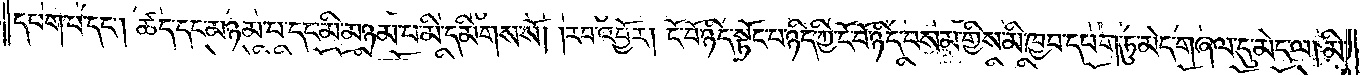དཔག་པ་དང༌། ཚད་དང་མཉམ་པ་དང་མི་མཉམ་པ་མི་དམིགས་སོ། །རབ་འབྱོར། ངོ་བོ་ཉིད་སྟོང་པ་ཉིད་ཀྱི་ངོ་བོ་ཉིད་བསམ་གྱིས་མི་ཁྱབ་དཔག་ཏུ་མེད་གཞལ་དུ་མེད་ལ། མི་
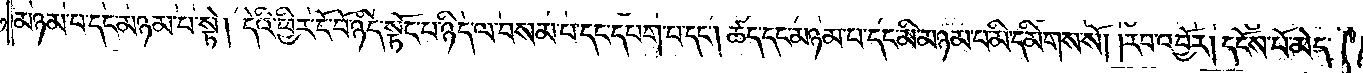མཉམ་པ་དང་མཉམ་པ་སྟེ། དེའི་ཕྱིར་ངོ་བོ་ཉིད་སྟོང་པ་ཉིད་ལ་བསམ་པ་དང་དཔག་པ་དང༌། ཚད་དང་མཉམ་པ་དང་མི་མཉམ་པ་མི་དམིགས་སོ། །རབ་འབྱོར། དངོས་པོ་མེད་
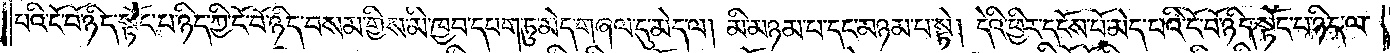པའི་ངོ་བོ་ཉིད་སྟོང་པ་ཉིད་ཀྱི་ངོ་བོ་ཉིད་བསམ་གྱིས་མི་ཁྱབ་དཔག་ཏུ་མེད་གཞལ་དུ་མེད་ལ། མི་མཉམ་པ་དང་མཉམ་པ་སྟེ། དེའི་ཕྱིར་དངོས་པོ་མེད་པའི་ངོ་བོ་ཉིད་སྟོང་པ་ཉིད་ལ་
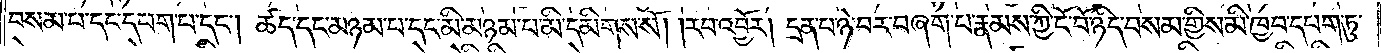བསམ་པ་དང་དཔག་པ་དང༌། ཚད་དང་མཉམ་པ་དང་མི་མཉམ་པ་མི་དམིགས་སོ། །རབ་འབྱོར། དྲན་པ་ཉེ་བར་བཞག་པ་རྣམས་ཀྱི་ངོ་བོ་ཉིད་བསམ་གྱིས་མི་ཁྱབ་དཔག་ཏུ་
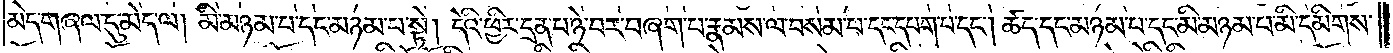མེད་གཞལ་དུ་མེད་ལ། མི་མཉམ་པ་དང་མཉམ་པ་སྟེ། དེའི་ཕྱིར་དྲན་པ་ཉེ་བར་བཞག་པ་རྣམས་ལ་བསམ་པ་དང་དཔག་པ་དང༌། ཚད་དང་མཉམ་པ་དང་མི་མཉམ་པ་མི་དམིགས་
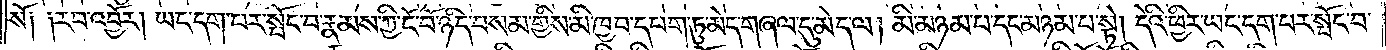སོ། །རབ་འབྱོར། ཡང་དག་པར་སྤོང་བ་རྣམས་ཀྱི་ངོ་བོ་ཉིད་བསམ་གྱིས་མི་ཁྱབ་དཔག་ཏུ་མེད་གཞལ་དུ་མེད་ལ། མི་མཉམ་པ་དང་མཉམ་པ་སྟེ། དེའི་ཕྱིར་ཡང་དག་པར་སྤོང་བ་
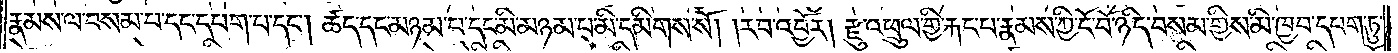རྣམས་ལ་བསམ་པ་དང་དཔག་པ་དང༌། ཚད་དང་མཉམ་པ་དང་མི་མཉམ་པ་མི་དམིགས་སོ། །རབ་འབྱོར། རྫུ་འཕྲུལ་གྱི་རྐང་པ་རྣམས་ཀྱི་ངོ་བོ་ཉིད་བསམ་གྱིས་མི་ཁྱབ་དཔག་ཏུ་
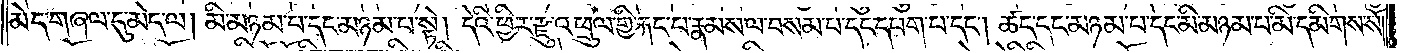མེད་གཞལ་དུ་མེད་ལ། མི་མཉམ་པ་དང་མཉམ་པ་སྟེ། དེའི་ཕྱིར་རྫུ་འཕྲུལ་གྱི་རྐང་པ་རྣམས་ལ་བསམ་པ་དང་དཔག་པ་དང༌། ཚད་དང་མཉམ་པ་དང་མི་མཉམ་པ་མི་དམིགས་སོ། །
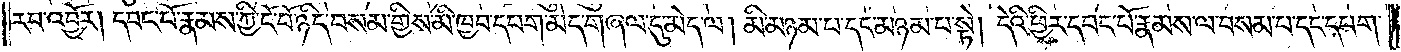རབ་འབྱོར། དབང་པོ་རྣམས་ཀྱི་ངོ་བོ་ཉིད་བསམ་གྱིས་མི་ཁྱབ་དཔག་ཏུ་མེད་གཞལ་དུ་མེད་ལ། མི་མཉམ་པ་དང་མཉམ་པ་སྟེ། དེའི་ཕྱིར་དབང་པོ་རྣམས་ལ་བསམ་པ་དང་དཔག་
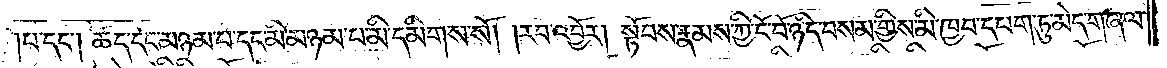པ་དང༌། ཚད་དང་མཉམ་པ་དང་མི་མཉམ་པ་མི་དམིགས་སོ། །རབ་འབྱོར། སྟོབས་རྣམས་ཀྱི་ངོ་བོ་ཉིད་བསམ་གྱིས་མི་ཁྱབ་དཔག་ཏུ་མེད་གཞལ་
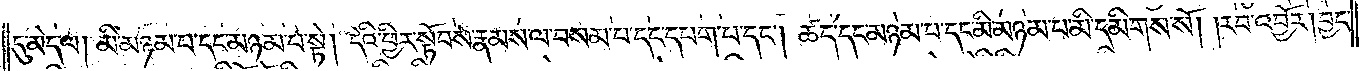དུ་མེད་ལ། མི་མཉམ་པ་དང་མཉམ་པ་སྟེ། དེའི་ཕྱིར་སྟོབས་རྣམས་ལ་བསམ་པ་དང་དཔག་པ་དང༌། ཚད་དང་མཉམ་པ་དང་མི་མཉམ་པ་མི་དམིགས་སོ། །རབ་འབྱོར། བྱང་
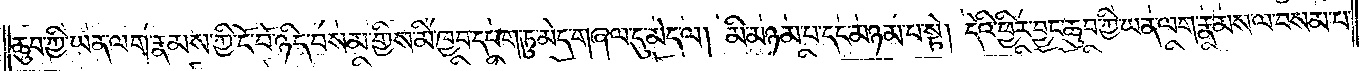ཆུབ་ཀྱི་ཡན་ལག་རྣམས་ཀྱི་ངོ་བོ་ཉིད་བསམ་གྱིས་མི་ཁྱབ་དཔག་ཏུ་མེད་གཞལ་དུ་མེད་ལ། མི་མཉམ་པ་དང་མཉམ་པ་སྟེ། དེའི་ཕྱིར་བྱང་ཆུབ་ཀྱི་ཡན་ལག་རྣམས་ལ་བསམ་པ་
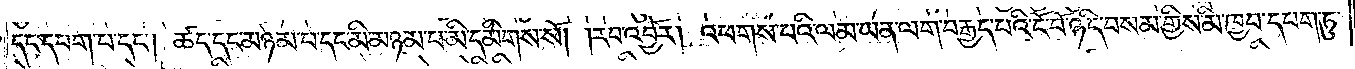དང་དཔག་པ་དང༌། ཚད་དང་མཉམ་པ་དང་མི་མཉམ་པ་མི་དམིགས་སོ། །རབ་འབྱོར། འཕགས་པའི་ལམ་ཡན་ལག་བརྒྱད་པའི་ངོ་བོ་ཉིད་བསམ་གྱིས་མི་ཁྱབ་དཔག་ཏུ་
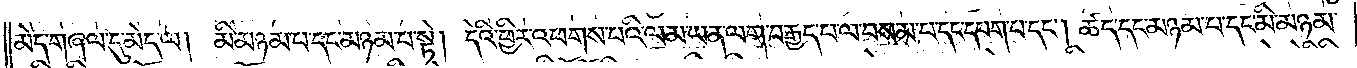མེད་གཞལ་དུ་མེད་ལ། མི་མཉམ་པ་དང་མཉམ་པ་སྟེ། དེའི་ཕྱིར་འཕགས་པའི་ལམ་ཡན་ལག་བརྒྱད་པ་ལ་བསམ་པ་དང་དཔག་པ་དང༌། ཚད་དང་མཉམ་པ་དང་མི་མཉམ་
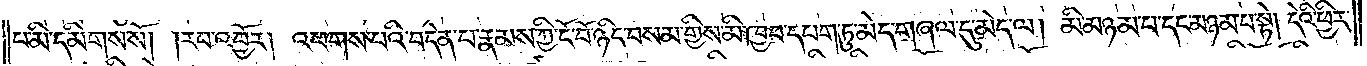པ་མི་དམིགས་སོ། །རབ་འབྱོར། འཕགས་པའི་བདེན་པ་རྣམས་ཀྱི་ངོ་བོ་ཉིད་བསམ་གྱིས་མི་ཁྱབ་དཔག་ཏུ་མེད་གཞལ་དུ་མེད་ལ། མི་མཉམ་པ་དང་མཉམ་པ་སྟེ། དེའི་ཕྱིར་
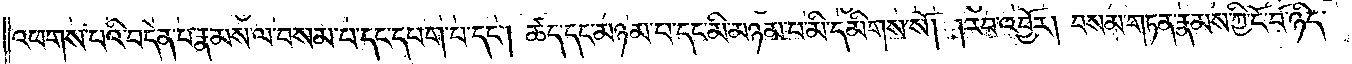འཕགས་པའི་བདེན་པ་རྣམས་ལ་བསམ་པ་དང་དཔག་པ་དང༌། ཚད་དང་མཉམ་པ་དང་མི་མཉམ་པ་མི་དམིགས་སོ། །རབ་འབྱོར། བསམ་གཏན་རྣམས་ཀྱི་ངོ་བོ་ཉིད་
